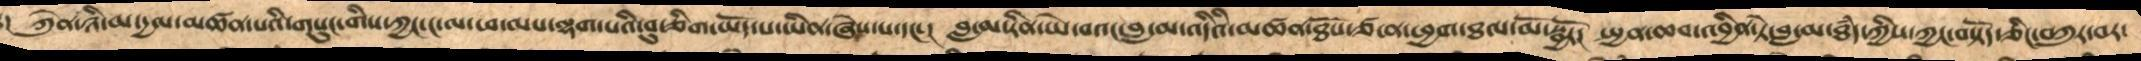། ཀེུན་ཉི་མ་དྱལ་མཚན་པའི་གསུང་གིས་ཀྱང་ང་ལ་ཕ་ལས་ལྷག་པའི་བུ་ཅིག་ཡོད་པ་ཡིན་ཞེས་པ་དང་།  བླ་མ་རིན་ཡེ་བའང་བླ་མ་འདིའི་མཚན་ཐོས་ཙ་ན་ཕྱག་ཐལ་མོ་སྦྱོར།  སྤྱན་ཆབ་འབྱིན་ཏེ་བླ་མ་ཐཾད་ཀྱིས་ཀྱང་བསྟོད་ཅིང་བཀུར་བར་
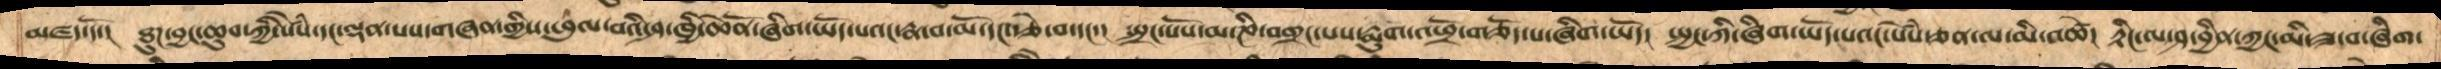མ་ཛད་དེ།  བྱང་ཆུབ་ཀྱི་སེཾས་དང་ལྡན་པས་གཞན་གྱིས་ཕུལ་བའི་ཤ་ཁྱི་ཆེནོ་ཞིག་ཡོད་པའང་རྣ་བ་མོ་དང་རྩེ་བ་དང་།  སྤྲང་པོས་མ་ཎི་བགྲང་པས་རྨུག་འཕྲོ་གཅོད་པ་ཞིག་ཡོད།  སྤྱང་ཀི་ཞིག་ཡོད་པའང་སེཾས་ཅན་ལ་མི་འཚེ།  རྟིང་ལ་ཤ་བྱིན་ཀྱང་མི་ཟ་བ་ཞིག་
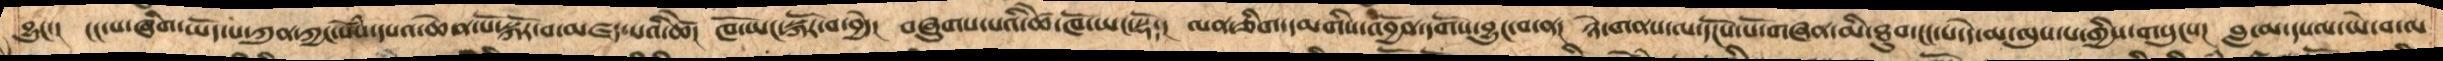བྱུང་།  ངང་པ་ཞིག་ཡོད་པ་ཀུན་ཀྱང་སེཾས་དཔའ་ཆེན་པོ་སྐོར་བ་མཛད་པའི་ཚེ།  ཁོ་ཡང་སྐོར་བ་བྱེད།  བཞུཌ་པའི་ཚེ་ཁོ་ཡང་སྡོད།  ལན་ཅིག་དམགིས་འབྱོན་དགོས་བྱུང་བ་ན།  ཉེ་གནས་ལ་དངོས་པོ་གཞན་མི་ཐུབ་ངང་པ་དེ་མ་ལུས་པ་གྱིས་གསུངས།  བླ་མ་དཔལ་ཡེ་བ་ལ་
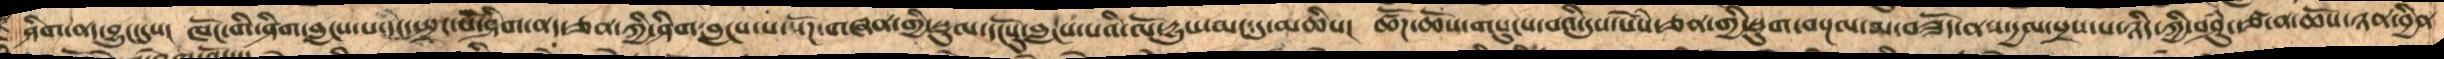ཤིག་ནད་བྱུང་དུས།  ཁོང་གི་ཤིག་བླངས་པ་དང་སྤྲང་བོ་ཤིག་ནད་ཅན་ཀྱི་ཤིག་བླངས་པ་སོཌ་གཞན་གྱི་སྡུལ་དངོསུ་བླངས་པའི་ལོ་དྱུས་ཀྱང་མང་དུ་མཆིས།  ཚོཌ་ཆོས་གསུངས་བའི་དུས་སེཾས་ཅན་གྱི་སྡུག་བསྔལ་མ་བཟོད་ནས་དྱལ་སྲས་པ་ཉིད་ཀྱི་བཤུཾ་ཙ་ན་ཆོས་ཉན་བྱིན་
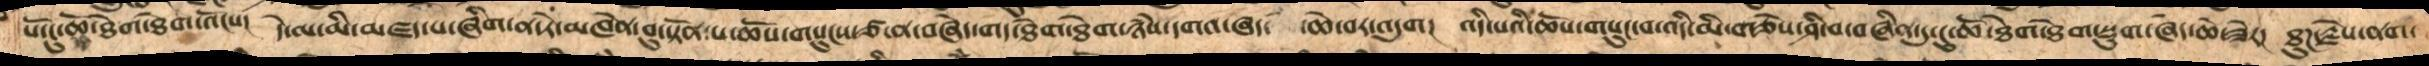པོ་ངུ་ཆོ་ཐེག་ཐེག་འོངས།  དེ་ལ་མི་མཛད་པ་ཞིག་ན་རེ་མཁེན་བུ་སྟོན་པ་ཆོས་གསུངས་ཙ་ན་བཞེད་གད་ཐེག་ཐེག་ཉཾས་དགའ་ཞད་ ཆེ་བར་འདུག།  འདི་པའི་ཆོས་གསུང་བ་འདི་མི་གཅེས་ཤི་བ་བཞིན་དུ་ངུ་ཆོ་ཐེག་ཐེག་སྡུག་ཞེད་ཆེ་ཟེར།  ཐུཌ་རྗེས་ནག་
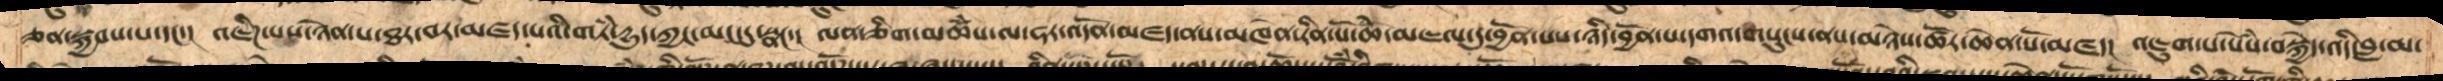ཅན་སྐྱབས་པ་དང་།  འཇིཌ་པས་ཉེན་པ་ཐར་བར་མཛད་པའི་གཏཾ་དྱུད་ཀྱང་མང་དུ་སྣང་།  ལན་གཅིག་མཚཾས་ལ་ཧར་འདོན་མཛད་ནས་མཁེན་རིན་པོ་ཆེ་མཇལ་དུ་བྱོན་པས་ཉིད་བྱོན་པ་དགའ་གསུངས་ནས་མཉེས་ཚོར་ཆེན་པོ་མཛད།  འཇུག་པ་སེཾས་བསྐྱེད་འདི་བླ་མ་
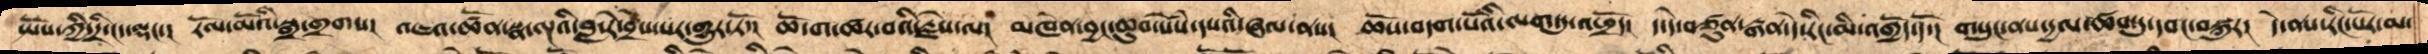སྤོས་ཀྱི་དྲི་ངད་ལྡང་།  རོལ་མོའི་སྒྲ་གྲགས།  འཇའ་ཚོན་སྣ་ལྔའི་བླ་རེ་བྲེས་པར་གྱུར་ཏོ།  ཆོ་ག་ཚར་བའི་རྗེས་ལ།  མཁེན་བྱང་ཆུབ་སེཾས་དཔའི་ཞལ་ནས།  ཆོས་བདག་པོའི་ལག་དུ་འཕྲོད།  ད་དེ་བཙུན་རྒན་དེ་རིང་མི་འགྱོད་དོ།  གསུང་ནས་དྱལ་ཚབ་དུ་དབང་བསྐུར།  དེ་ནས་རིང་པོར་མ
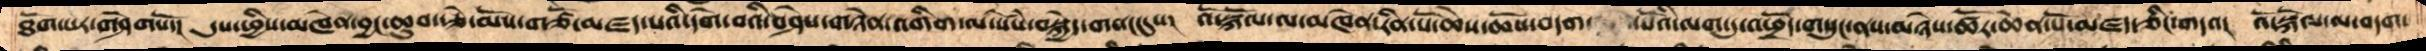ཐོག་པར་གཤེགསོ།  དུས་ཕྱིས་མཁེན་བྱང་ཆུབ་རྩེ་མོས་གཙོ་མཛད་པའི་དགེ་བའི་བཤེས་གཉེན་འགིག་ལ་སེཾས་བསྐྱེད་གནང་དུས།  འོ་སྐོལ་ལ་མཁེན་རིན་པོ་ཆེས་ཆོས་བདག་པོའི་ལག་དུ་འཕྲོད་གསུང་ནས་མཉེས་ཚོར་ཆེན་པོ་མཛད་ཅིང་གདའ།  འོ་སྐོལ་ལ་བདག་
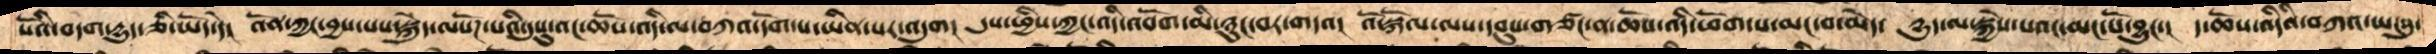པོའི་བདག་དྱུ་ཅི་ཡོད་དེ།  འོན་ཀྱང་བྱས་པས་སྐེུད་ལསོཌ་པའི་དུསུ་འང་ཆོས་འདི་ལ་བཀའ་དོག་པ་ཡིན་པར་འདུག།  དུས་ཕྱིས་ཀྱང་འདི་འབོག་མི་ཉུང་བར་གདའ།  འོ་སྐོལ་ལས་དབུས་གཙང་ན་ཆོས་འདི་ཕོག་པ་མང་བ་མེད།  དྱུད་ལ་སྐྱེས་པའང་མང་པོ་བྱུང་།  ད་ཆོས་འདིའི་བཀའ་ཡངསུ་
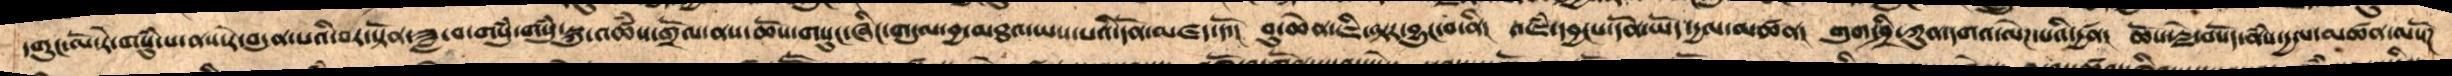དགུང་ལོ་རེ་གསུཾ་པ་ནས་རེ་བདུན་པའི་བར་སྟོན་ཟླ་བ་གསུཾ་གསུཾ་སྐུ་འཚཾས་གྲོལ་ནས་ཆོས་གསུང་ཞིང་གདུལ་བྱ་མཐའ་ཡས་པའི་དོན་མཛད་དོ།  བུ་ཆེན་ཇི་ལྟར་བྱུང་བ་ནི།  འཇཾ་དབྱངས་དོན་ཡོད་དྱལ་མཚན།  གུག་ཤྲཱི་ཀུན་དགའ་ལེཌ་པའི་དྱཚན།  ཆོས་རྗེ་བསོད་ནཾས་དྱལ་མཚན་ལསོཌ
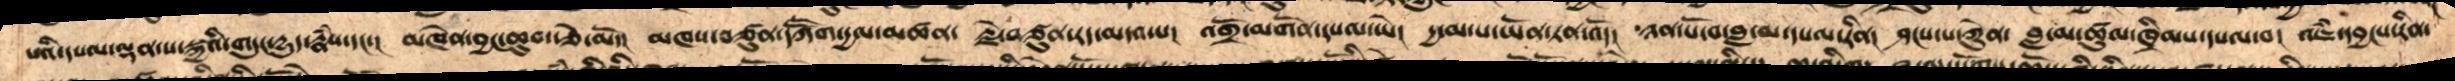པའི་དཔལ་ལྡན་ས་སྐྱའི་གདུང་བདྱུད་རྣཾས་དང་།  མཁེན་བྱང་ཆུབ་རྩེ་མོ།  མཁས་བཙུན་དཀཽག་དྱལ་མཚན།  རྗེ་བཙུན་རད་མདའ་པ།  འགྲོ་མགོན་དཔལ་ཡེ།  དྱ་མ་བ་ཡོན་ཏན་འོད།  ཉན་པོ་བ་བླ་མ་དཔལ་རིན།  ཤངས་པ་ཀེུན།  བླ་མ་ཚུལ་ཁྲིམས་དཔལ་བ།  འཇཾ་དབྱངས་རིན་
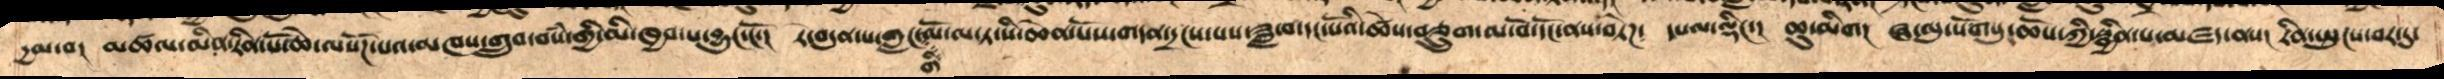དྱལ་བ། འཚལ་མིན་རིན་པོ་ཆེ་ལསོཌ་པའ་མཁས་གྲུབ་བསཾ་གྱི་མི་ཁྱབ་པ་བྱུང་ངོ་། རེ་བདུན་པ་གླང་གི་ལོ་ལ་ཏ་སི་ཆེན་པོས་གདན་དྲངས་པས་ཟླ་བ་དང་པོའི་ཚེས་བཅྲུག་ལ་བོ་དོང་ནས་བཏེཌ།  དཔལ་ལྡིང་། ཆུ་མིག། ཞ་ལུ་སོགསུ་ཆོས་ཀྱི་སྦྱིན་པ་མཛད་ནས། རིན་སྤུངས་བར་དུ་
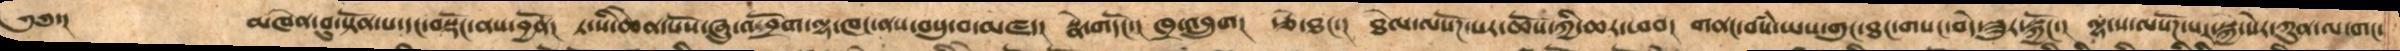༄༅་།     མཁེན་བུ་སྟོན་པ་དང་བསྡོང་ནས་བྱོན།  ཏ་སི་ཆེན་པོས་ཞུ་འཕྲོག་ལྷ་ཁང་ནས་བསུ་བ་མཛད།  སྣེ་གདོང་།  ཁྲ་འབྲུག།  རྩེས་ཐང་།  ཐེལ་ལསོཌ་པར་ཆོས་ཀྱི་ཆར་ཕབ།  གནང་བསཾ་ཡས་གུང་ཐང་གསང་བདེ་ཟུལ་སྐྱོང།  ལྷ་ས་ལསོཌ་པར་སྐྱ་སེར་ཀུན་ལ་གང་
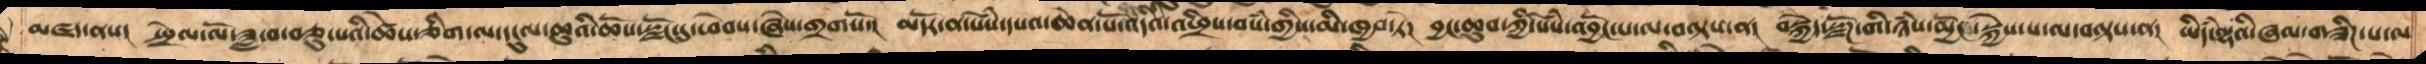མཛད་ནས།  སྤྲེལ་ལོ་ཟླ་བ་བཅུ་པའི་ཚེས་གཅིག་ལ་དངུལ་ཆུའི་ཆོས་སྫོང་དུ་ཕེབས་ཞེས་གྲགསོ་།  མདོར་ན་སེཾས་དཔའ་ཆེན་པོ་འདིའི་འཕྲིས་བསཾ་གྱིས་མི་ཁྱབ་ཏེ།  བྱང་ཆུབ་ཀྱི་སེཾས་འབྱོངས་པ་ལ་བལྟས་ན།  བསྐྱེད་སྫོཌ་གི་ཉཾས་མྱོང་སྐྱེས་པ་ལ་བལྟས་ན།  ཡིདཾ་ལྷའི་ཞལ་གཟིཌ་པ་ལ་
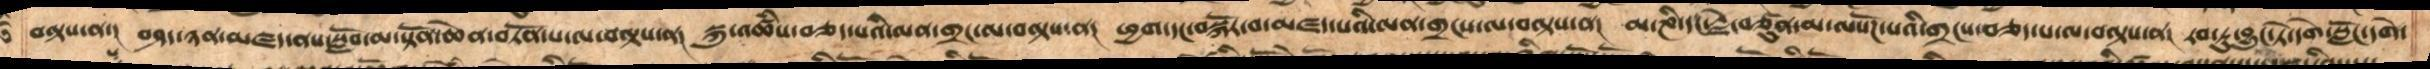བལྟས་ན་།  བཤད་ཉན་མཛད་ནས་སློབ་མ་སྟོན་ཆེན་བཏོན་པ་ལ་བལྟས་ན། སྐུ་འཚཾས་བཅད་པའི་ལན་གྲང་ལ་བལྟས་ན། ཕྱག་དང་བསྐོར་བ་མཛད་པའི་ལན་གྲངས་ལ་བལྟས་བ། མ་ཎི་དང་རྗེ་བཙུན་མ་ལསོཌ་པའི་གྲངས་བཅད་པ་ལ་བལྟས་ན། རབ་ཏུ་བྱུང་ཏེ་དགེ་སློང་དགེ་
